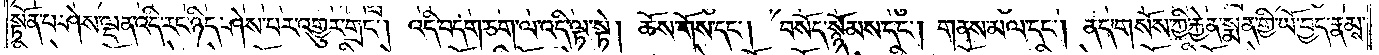སྟོན་པ་ཤེས་ལྡན་འདི་རང་ཉིད་ཤེས་པར་འགྱུར་གྲང༌། འདི་བདག་ཅག་ལ་འདི་ལྟ་སྟེ། ཆོས་གོས་དང༌། བསོད་སྙོམས་དང༌། གནས་མལ་དང༌། ནད་གསོས་ཀྱི་རྐྱེན་སྨན་གྱི་ཡོ་བྱད་རྣམས་
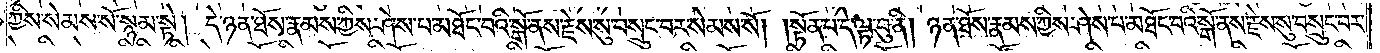ཀྱིས་སེམས་སོ་སྙམ་སྟེ། དེ་ཉན་ཐོས་རྣམས་ཀྱིས་ཤེས་པ་མཐོང་བའི་སྒོ་ནས་རྗེས་སུ་བསྲུང་བར་སེམས་སོ། །སྟོན་པ་དེ་ལྟ་བུ་ནི། ཉན་ཐོས་རྣམས་ཀྱིས་ཤེས་པ་མཐོང་བའི་སྒོ་ནས་རྗེས་སུ་བསྲུང་བར་
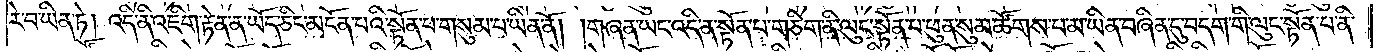རེ་བ་ཡིན་ཏེ། འདི་ནི་འཇིག་རྟེན་ན་ཡོད་ཅིང་མངོན་པའི་སྟོན་པ་གསུམ་པ་ཡིན་ནོ། །གཞན་ཡང་འདི་ན་སྟོན་པ་གཅིག་ནི་ལུང་སྟོན་པ་ཕུན་སུམ་ཚོགས་པ་མ་ཡིན་བཞིན་དུ་བདག་གི་ལུང་སྟོན་པ་ནི་
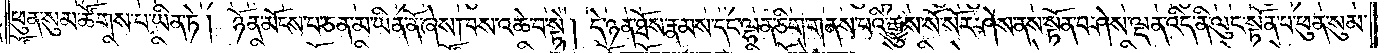ཕུན་སུམ་ཚོགས་པ་ཡིན་ཏེ། ཉོན་མོངས་པ་ཅན་མ་ཡིན་ནོ་ཞེས་ཁས་འཆེ་བ་སྟེ། དེ་ཉན་ཐོས་རྣམས་དང་ལྷན་ཅིག་གནས་པའི་རྒྱུས་སོ་སོར་ཤེས་ནས་སྟོན་པ་ཤེས་ལྡན་འདི་ནི་ལུང་སྟོན་པ་ཕུན་སུམ་
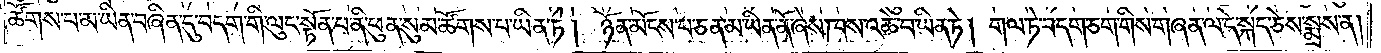ཚོགས་པ་མ་ཡིན་བཞིན་དུ་བདག་གི་ལུང་སྟོན་པ་ནི་ཕུན་སུམ་ཚོགས་པ་ཡིན་ཏེ།<gap>ཉོན་མོངས་པ་ཅན་མ་ཡིན་ནོ་ཞེས་ཁས་འཆེ་བ་ཡིན་ཏེ། གལ་ཏེ་བདག་ཅག་གིས་གཞན་ལ་དེ་སྐད་ཅེས་སྨྲས་ན།
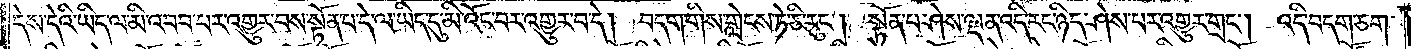དེས་དེའི་ཡིད་ལ་མི་འབབ་པར་འགྱུར་བས་སྟོན་པ་དེ་ལ་ཡིད་དུ་མི་འོང་བར་འགྱུར་བ་དེ། བདག་གིས་གླེངས་ཏེ་ཅི་རུང༌། སྟོན་པ་ཤེས་ལྡན་འདི་རང་ཉིད་ཤེས་པར་འགྱུར་གྲང༌། འདི་བདག་ཅག་
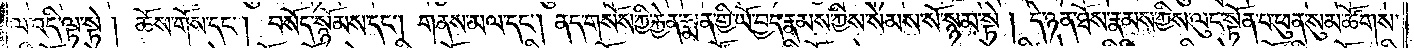ལ་འདི་ལྟ་སྟེ། ཆོས་གོས་དང༌། བསོད་སྙོམས་དང༌། གནས་མལ་དང༌། ནད་གསོས་ཀྱི་རྐྱེན་སྨན་གྱི་ཡོ་བྱད་རྣམས་ཀྱིས་སེམས་སོ་སྙམ་སྟེ། དེ་ཉན་ཐོས་རྣམས་ཀྱིས་ལུང་སྟོན་པ་ཕུན་སུམ་ཚོགས་
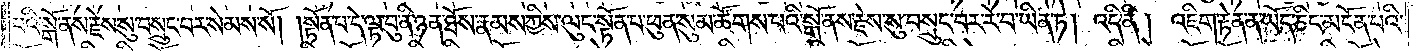པའི་སྒོ་ནས་རྗེས་སུ་བསྲུང་བར་སེམས་སོ། །སྟོན་པ་དེ་ལྟ་བུ་ནི་ཉན་ཐོས་རྣམས་ཀྱིས་ལུང་སྟོན་པ་ཕུན་སུམ་ཚོགས་པའི་སྒོ་ནས་རྗེས་སུ་བསྲུང་བར་རེ་བ་ཡིན་ཏེ། འདི་ནི། འཇིག་རྟེན་ན་ཡོད་ཅིང་མངོན་པའི་
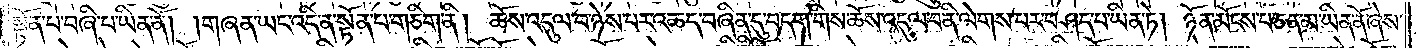སྟོན་པ་བཞི་པ་ཡིན་ནོ། །གཞན་ཡང་འདི་ན་སྟོན་པ་གཅིག་ནི། ཆོས་འདུལ་བ་ཉེས་པར་འཆད་བཞིན་དུ་བདག་གིས་ཆོས་འདུལ་བ་ནི་ལེགས་པར་བཤད་པ་ཡིན་ཏེ། ཉོན་མོངས་པ་ཅན་མ་ཡིན་ནོ་ཞེས་
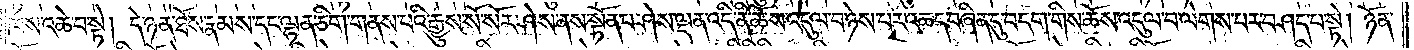ཁས་འཆེ་བ་སྟེ། དེ་ཉན་ཐོས་རྣམས་དང་ལྷན་ཅིག་གནས་པའི་རྒྱུས་སོ་སོར་ཤེས་ནས་སྟོན་པ་ཤེས་ལྡན་འདི་ནི་ཆོས་འདུལ་བ་ཉེས་པར་འཆད་བཞིན་དུ་བདག་གི་ཆོས་འདུལ་བ་ལེགས་པར་བཤད་པ་སྟེ། ཉོན་
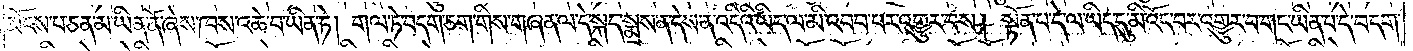མོངས་པ་ཅན་མ་ཡིན་ནོ་ཞེས་ཁས་འཆེ་བ་ཡིན་ཏེ། གལ་ཏེ་བདག་ཅག་གིས་གཞན་ལ་དེ་སྐད་སྨྲས་ན་དེས་ན་འདིའི་ཡིད་ལ་མི་འབབ་པར་འགྱུར་བས། སྟོན་པ་དེ་ལ་ཡིད་དུ་མི་འོང་བར་འགྱུར་བ་གང་ཡིན་པ་དེ་བདག་
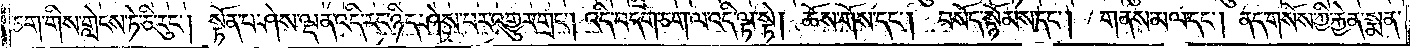ཅག་གིས་གླེངས་ཏེ་ཅི་རུང༌། སྟོན་པ་ཤེས་ལྡན་འདི་རང་ཉིད་ཤེས་པར་འགྱུར་གྲང༌། འདི་བདག་ཅག་ལ་འདི་ལྟ་སྟེ། ཆོས་གོས་དང༌། བསོད་སྙོམས་དང༌། གནས་མལ་དང༌། ནད་གསོས་ཀྱི་རྐྱེན་སྨན་
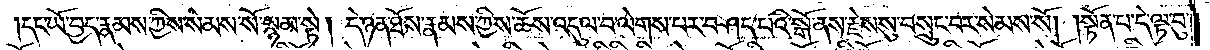དང་ཡོ་བྱད་རྣམས་ཀྱིས་སེམས་སོ་སྙམ་སྟེ། དེ་ཉན་ཐོས་རྣམས་ཀྱིས་ཆོས་འདུལ་བ་ལེགས་པར་བཤད་པའི་སྒོ་ནས་རྗེས་སུ་བསྲུང་བར་སེམས་སོ། །སྟོན་པ་དེ་ལྟ་བུ་
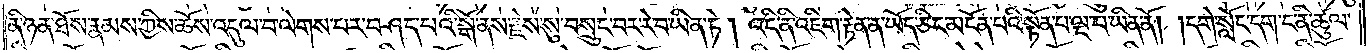ནི་ཉན་ཐོས་རྣམས་ཀྱིས་ཆོས་འདུལ་བ་ལེགས་པར་བཤད་པའི་སྒོ་ནས་རྗེས་སུ་བསྲུང་བར་རེ་བ་ཡིན་ཏེ། འདི་ནི་འཇིག་རྟེན་ན་ཡོད་ཅིང་མངོན་པའི་སྟོན་པ་ལྔ་པ་ཡིན་ནོ། །དགེ་སློང་དག་ང་ནི་ཚུལ་
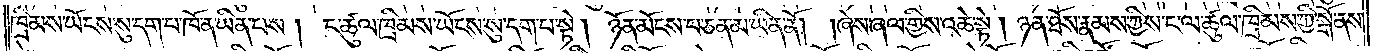ཁྲིམས་ཡོངས་སུ་དག་པ་ཁོ་ན་ཡིན་པས། ང་ཚུལ་ཁྲིམས་ཡོངས་སུ་དག་པ་སྟེ། ཉོན་མོངས་པ་ཅན་མ་ཡིན་ནོ། །ཞེས་ཞལ་གྱིས་འཆེ་སྟེ། ཉན་ཐོས་རྣམས་ཀྱིས་ང་ལ་ཚུལ་ཁྲིམས་ཀྱི་སྒོ་ནས་
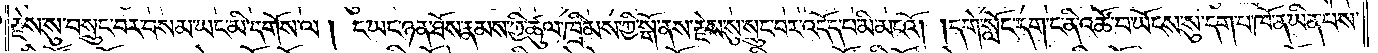རྗེས་སུ་བསྲུང་བར་བསམ་ཡང་མི་དགོས་ལ། ང་ཡང་ཉན་ཐོས་རྣམས་ཀྱིས་ཚུལ་ཁྲིམས་ཀྱི་སྒོ་ནས་རྗེས་སུ་སྲུང་བར་འདོད་པ་མི་མངའོ། །དགེ་སློང་དག་ང་ནི་འཚོ་བ་ཡོངས་སུ་དག་པ་ཁོ་ན་ཡིན་པས་
